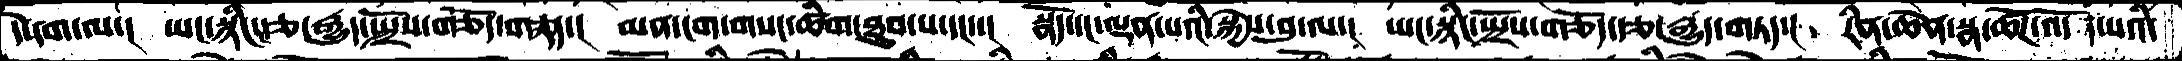དེ་དག་ལ་།  ཡང་སྙིང་རྩ་རྒྱུད་སྤྲོས་གཅོད་གཏད་།  མན་ངག་གསང་ཚིག་ཐུབ་པ་དང་་།  སྣོད་དང་ལྡན་པའི་སྐྱེས་བུ་ལ་།  ཡང་སྙིང་སྤྲོས་གཅོད་རྩ་རྒྱུད་གཏད་།  རིན་ཆེན་སྣ་ཚོཌ་འདོན་པའི་
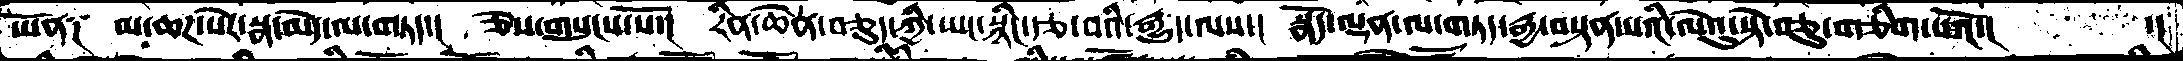ཡོན༑   མ་ཆཌ་སེར་སྣ་མེད་ལ་གཏད་།  ཅེས་གསུངས་སོ་།  རིན་ཆེན་བཅུད་ཀྱི་ཡང་སྙིང་རྩ་བའི་རྒྱུད་ལས་།  སྣོད་ལྡན་ལ་གཏད་རྒྱ་བསྟན་པའི་ལེའུ་སྟེ་བཅུ་གཅིག་པའོ་།   ་།
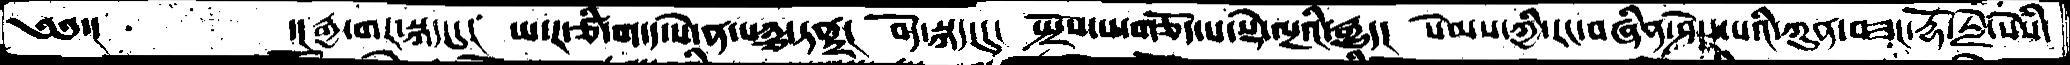༄༅་།       ་།རྒྱ་གར་སྐད་དུ།  ཡ་ར་ཙི་ག་ད་སེ་ན་པཉྩ་ཏནྟྲ།   བོད་སྐད་དུ།  སྤྲོས་པ་གཅོད་པ་སྡེ་ལྔའི་རྒྱུད།  སེམས་ཀྱི་རང་བཞིན་ཤེས་པའི་ཀུན་བཟང་རྡོ་རྗེ་སེསཾ་
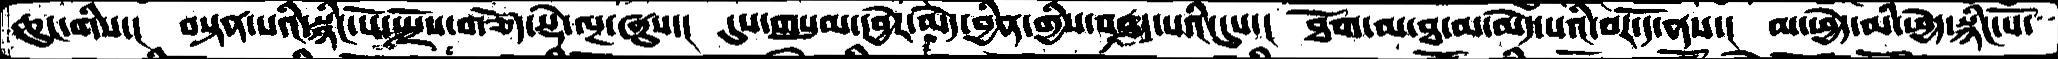ཆུང་གིས་། བསྟན་པའི་སྙིང་པོ་སྤྲོས་གཅོད་སྡེ་ལྔ་ཞུས་། དུས་གསུམ་དབྱེར་མེད་བྱིན་གྱིས་བཤད་པའི་དུས་། ཐོག་མ་ཐ་མ་མེད་པའི་བར་དོ་ནས་། མ་ཕྱེད་མི་ཕྱེད་སྙིང་པོ་་
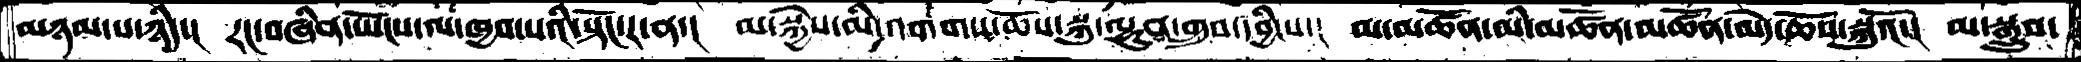མཉམ་པ་ཉིད་།  རང་བཞིན་ཡོངས་ལ་ཁྱབ་པའི་སྟོང་ར་ན་།  མ་སྐྱེས་མི་འགགས་ཆོས་སྐུ་ལྷུན་གྲུབ་དབྱིངས་།  མ་མཚོན་མི་མཚོན་མཚོན་མེད་ཆོས་སྐུའོ་།  མ་སྒྲུབ་
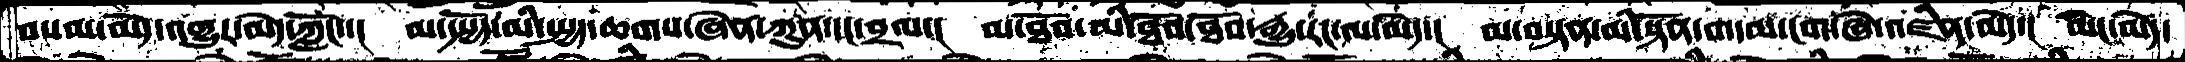བསམ་མེད་འགྱུར་མེད་ཀློང་་།  མ་སྤྱོད་མི་སྤྱད་ཆགས་ཞེན་ཀུན་དང་བྲལ་།  མ་ཐོབ་མི་ཐོབ་ཐོབ་རྒྱུ་རང་ལ་མེད་།  མ་བསྟན་མི་སྟོན་གདམ་ངག་ཞེ་འཛིན་མེད་།  ཡེང་མེད་
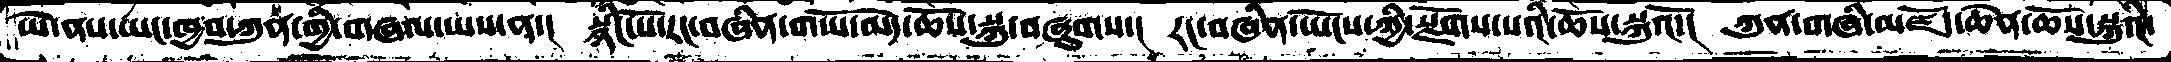ཡེ་ནས་ཡང་ཁྱབ་ཀུན་ཀྱི་གཞལ་ཡས་ན་།  སྙིང་པོ་རང་བཞིན་གཡོ་མེད་ཆོས་སྐུ་བཞུགས་།  རང་བཞིན་ཡོངས་ཀྱི་སྫོགས་པའི་ཆོས་སྐུའོ་།  ཀུན་གཞི་མཛོད་ཆེན་ཆོས་སྐུའི་
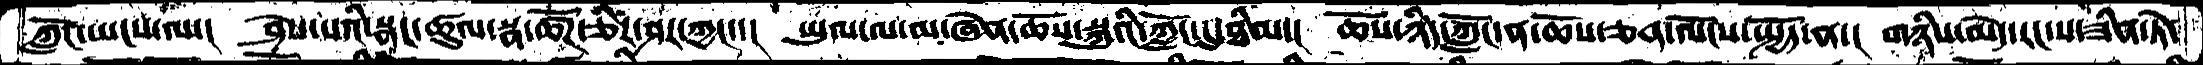ཀློང་ཡངས་ལ་།  ཤེས་པའི་སྣང་ཚུལ་སྣ་ཚོཌ་ཅིར་ཤར་ཀྱང་་།  ཡུལ་ལ་མ་ཞེན་ཆོས་སྐུའི་ཀློང་དུ་ཐིམ་།  ཆོས་ཉིད་ཀློང་ན་ཆོས་ཅན་ལོངས་སྤྱོད་ན་།  གཉིས་མེད་རང་ས་ཟིན་ཏེ་
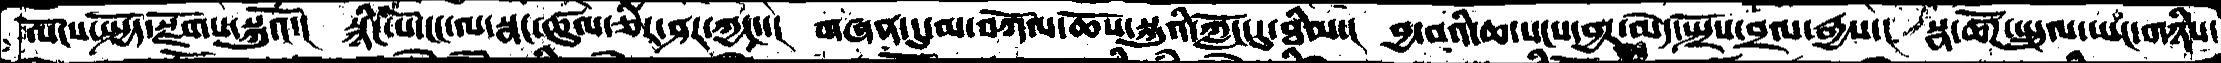ལོངས་སྤྱོད་སྫོགས་སྐུའོ་།  སྙིང་པོ་ངང་ལ་སྣང་ཚུལ་ཅིར་ཤར་ཀྱང་་།  གཞན་དུ་མ་བཀོལ་ཆོས་སྐུའི་ཀློང་དུ་ཐིམ་།  བྱ་བའི་ཆ་སངས་བྱར་མེད་སྤྲོས་བྲལ་རྒྱས་།  སྣ་ཚོཌ་ཡུལ་ཡང་གཉིས་
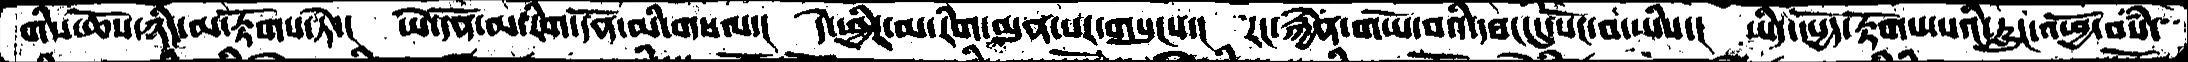གིས་ཆོས་ཉིད་མ་རྟོགས་ཏེ་།  ཡེ་དོན་མ་རིག་དོན་མི་གསལ་།  དེ་ཕྱིར་མ་རིག་མུན་པར་གསུངས་།  རང་རྐྱེན་གཡོ་བའི་དབང་དུ་སོང་བ་ཡིས་།  ཡིད་དཔྱོད་རྟོགས་པའི་རླུང་འཕྱོ་བསཾ་
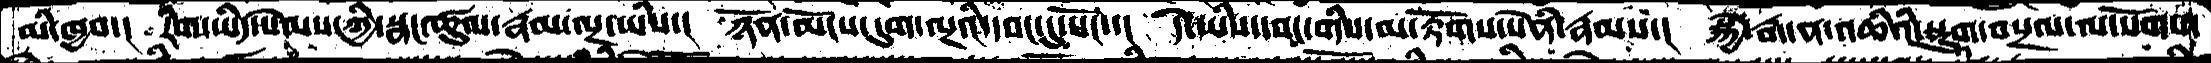མི་ཁྱབ་།  རིག་ཡིད་སེམས་ཀྱི་སྣང་ཚུལ་རྣམ་ལྔ་ཡིས་།  ཉོན་མོངས་དུག་ལྔའི་དབང་དུ་སོང་་།  དེ་ཡིས་དབང་གིས་མ་རྟོགས་སེནཾ་རྣམས་།  སྐྱེ་རྒ་ན་འཆིའི་སྡུག་བསྔལ་ལ་སོགས་
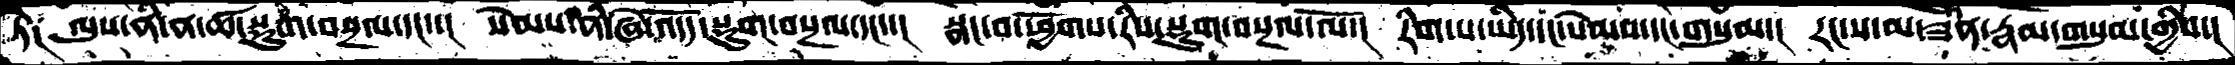ཏེ༑   ལུས་ནི་ན་ཚ་སྡུག་བསྔལ་དང་་།  སེམས་ནི་ཞེ་འདོད་སྡུག་བསྔལ་དང་་།  སྣང་བ་ཕྱོགས་རིས་སྡུག་བསྔལ་ལོ་།  རིག་པ་ཡིད་དང་སེམས་དང་གསུམ་།  རང་ས་མ་ཟིན་རྣམ་གསུམ་གྱིས་།
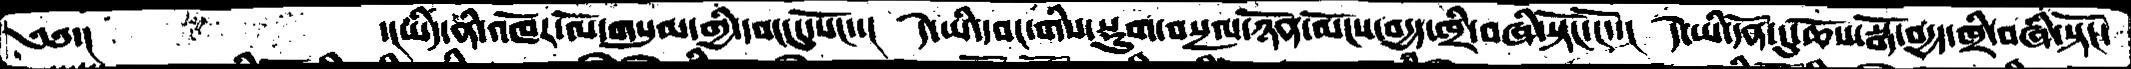༄༅་།       ་།ཡིད་ནི་ནཾ་འཁོར་ལོ་གསུམ་གྱི་དབང་དུ་སོང་་།  དེ་ཡི་དབང་གིས་སྡུག་བསྔལ་ཉོན་མོངས་བདྱད་ཁྲི་བཞི་སྟོང་ངོ་་།  དེ་ཡི་དོན་དུ་ཆོས་སྒོ་བདྱད་ཁྲི་བཞི་སྟོང་
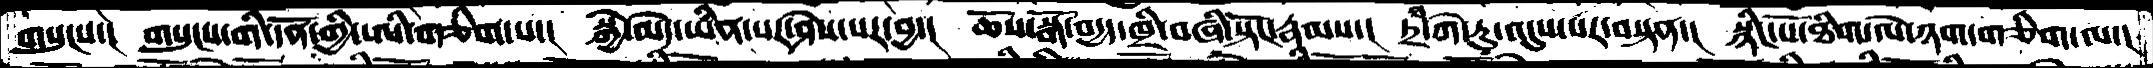གསུངས་།  གསུངས་གི་དོན་གྱི་ཨི་གཅིག་པ་།  སྐྱེ་མེད་ཡིན་པར་ཤེས་པར་བྱ་།   ཆོས་སྒོ་བདྱད་ཁྲི་བཞི་སྟོང་རྣམས་།  ཏྲཾ་ཀེ་རུ་འདུས་པར་བསྟན་།  སྙིང་པོ་ཐིག་ལེ་ཉག་གཅིག་ལ་།
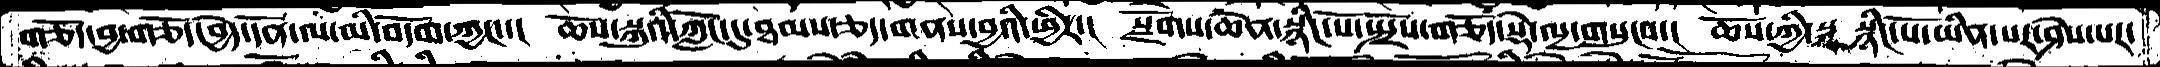གཅོད་བྱ་གཅོད་བྱེད་དོན་ལ་མི་བདོག་ཀྱང་་།  ཆོས་སྐུའི་ཀློང་དུ་ཐམས་ཅད་གནས་བྱའི་ཕྱིར་།  སྫོགས་ཆེན་སྙིང་པོ་སྤྲོས་གཅོད་སྡེ་ལྔ་གསུངས་།  ཆོས་ཀྱི་   སྙིང་པོ་ཡིན་པར་ཤེས་པར་
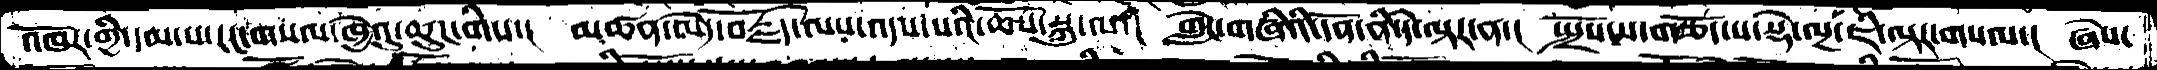འཁོར་གྱི་དམ་པ་རང་གསལ་ཁྱེའུ་ཆུང་གིས་།  མཚན་མེད་བརྗོད་ལས་འདས་པའི་ཆོས་སྐུ་ལ་།  གླེང་གཞིའི་དོན་ནི་དེ་ལྟར་ན་།  སྤྲོས་པ་གཅོད་པ་སྡེ་ལྔ་ཇི་ལྟར་གསལ་།  ཞེས་
